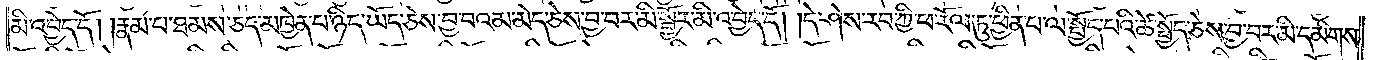མི་འབྱེད་དོ། །རྣམ་པ་ཐམས་ཅད་མཁྱེན་པ་ཉིད་ཡོད་ཅེས་བྱ་བའམ་མེད་ཅེས་བྱ་བར་མི་སྦྱོར་མི་འབྱེད་དོ། །དེ་ཤེས་རབ་ཀྱི་ཕ་རོལ་ཏུ་ཕྱིན་པ་ལ་སྤྱོད་པའི་ཚེ་སྤྱོད་ཅེས་བྱ་བར་མི་དམིགས་
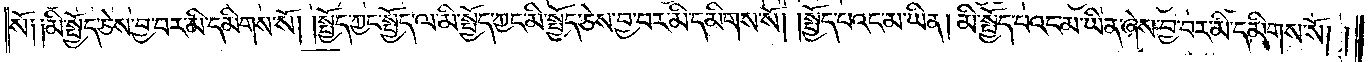སོ༑ ༑མི་སྤྱོད་ཅེས་བྱ་བར་མི་དམིགས་སོ། །སྤྱོད་ཀྱང་སྤྱོད་ལ་མི་སྤྱོད་ཀྱང་མི་སྤྱོད་ཅེས་བྱ་བར་མི་དམིགས་སོ། །སྤྱོད་པའང་མ་ཡིན། མི་སྤྱོད་པའང་མ་ཡིན་ཞེས་བྱ་བར་མི་དམིགས་སོ། །
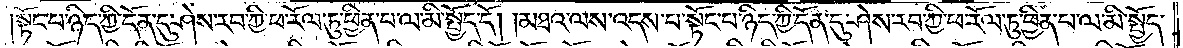སྟོང་པ་ཉིད་ཀྱི་དོན་དུ་ཤེས་རབ་ཀྱི་ཕ་རོལ་ཏུ་ཕྱིན་པ་ལ་མི་སྤྱོད་དོ། །མཐའ་ལས་འདས་པ་སྟོང་པ་ཉིད་ཀྱི་དོན་དུ་ཤེས་རབ་ཀྱི་ཕ་རོལ་ཏུ་ཕྱིན་པ་ལ་མི་སྤྱོད་
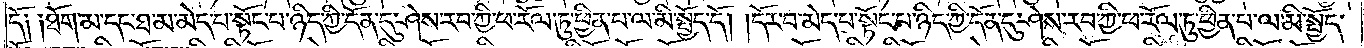དོ༑ ༑ཐོག་མ་དང་ཐ་མ་མེད་པ་སྟོང་པ་ཉིད་ཀྱི་དོན་དུ་ཤེས་རབ་ཀྱི་ཕ་རོལ་ཏུ་ཕྱིན་པ་ལ་མི་སྤྱོད་དོ། །དོར་བ་མེད་པ་སྟོང་པ་ཉིད་ཀྱི་དོན་དུ་ཤེས་རབ་ཀྱི་ཕ་རོལ་ཏུ་ཕྱིན་པ་ལ་མི་སྤྱོད་
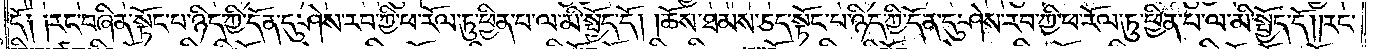དོ༑ ༑རང་བཞིན་སྟོང་པ་ཉིད་ཀྱི་དོན་དུ་ཤེས་རབ་ཀྱི་ཕ་རོལ་ཏུ་ཕྱིན་པ་ལ་མི་སྤྱོད་དོ། །ཆོས་ཐམས་ཅད་སྟོང་པ་ཉིད་ཀྱི་དོན་དུ་ཤེས་རབ་ཀྱི་ཕ་རོལ་ཏུ་ཕྱིན་པ་ལ་མི་སྤྱོད་དོ། །རང་
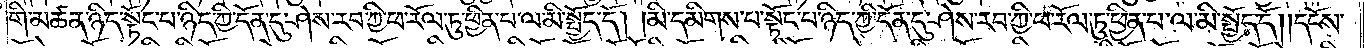གི་མཚན་ཉིད་སྟོང་པ་ཉིད་ཀྱི་དོན་དུ་ཤེས་རབ་ཀྱི་ཕ་རོལ་ཏུ་ཕྱིན་པ་ལ་མི་སྤྱོད་དོ། །མི་དམིགས་པ་སྟོང་པ་ཉིད་ཀྱི་དོན་དུ་ཤེས་རབ་ཀྱི་ཕ་རོལ་ཏུ་ཕྱིན་པ་ལ་མི་སྤྱོད་དོ། །དངོས་
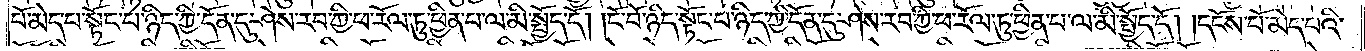པོ་མེད་པ་སྟོང་པ་ཉིད་ཀྱི་དོན་དུ་ཤེས་རབ་ཀྱི་ཕ་རོལ་ཏུ་ཕྱིན་པ་ལ་མི་སྤྱོད་དོ། །ངོ་བོ་ཉིད་སྟོང་པ་ཉིད་ཀྱི་དོན་དུ་ཤེས་རབ་ཀྱི་ཕ་རོལ་ཏུ་ཕྱིན་པ་ལ་མི་སྤྱོད་དོ། །དངོས་པོ་མེད་པའི་
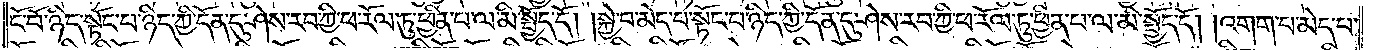ངོ་བོ་ཉིད་སྟོང་པ་ཉིད་ཀྱི་དོན་དུ་ཤེས་རབ་ཀྱི་ཕ་རོལ་ཏུ་ཕྱིན་པ་ལ་མི་སྤྱོད་དོ། །སྐྱེ་བ་མེད་པ་སྟོང་པ་ཉིད་ཀྱི་དོན་དུ་ཤེས་རབ་ཀྱི་ཕ་རོལ་ཏུ་ཕྱིན་པ་ལ་མི་སྤྱོད་དོ། །འགག་པ་མེད་པ་
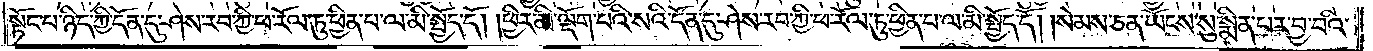སྟོང་པ་ཉིད་ཀྱི་དོན་དུ་ཤེས་རབ་ཀྱི་ཕ་རོལ་ཏུ་ཕྱིན་པ་ལ་མི་སྤྱོད་དོ། །ཕྱིར་མི་ལྡོག་པའི་སའི་དོན་དུ་ཤེས་རབ་ཀྱི་ཕ་རོལ་ཏུ་ཕྱིན་པ་ལ་མི་སྤྱོད་དོ། །སེམས་ཅན་ཡོངས་སུ་སྨིན་པར་བྱ་བའི་
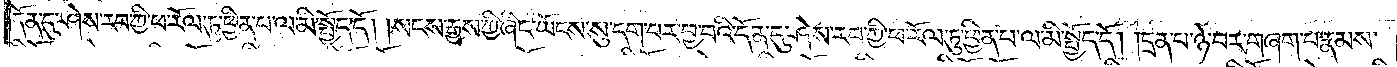དོན་དུ་ཤེས་རབ་ཀྱི་ཕ་རོལ་ཏུ་ཕྱིན་པ་ལ་མི་སྤྱོད་དོ། །སངས་རྒྱས་ཀྱི་ཞིང་ཡོངས་སུ་དག་པར་བྱ་བའི་དོན་དུ་ཤེས་རབ་ཀྱི་ཕ་རོལ་ཏུ་ཕྱིན་པ་ལ་མི་སྤྱོད་དོ། །དྲན་པ་ཉེ་བར་གཞག་པ་རྣམས་
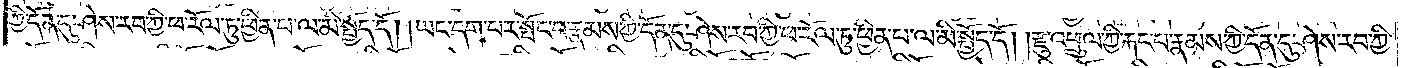ཀྱི་དོན་དུ་ཤེས་རབ་ཀྱི་ཕ་རོལ་ཏུ་ཕྱིན་པ་ལ་མི་སྤྱོད་དོ། །ཡང་དག་པར་སྤོང་བ་རྣམས་ཀྱི་དོན་དུ་ཤེས་རབ་ཀྱི་ཕ་རོལ་ཏུ་ཕྱིན་པ་ལ་མི་སྤྱོད་དོ། །རྫུ་འཕྲུལ་ཀྱི་རྐང་པ་རྣམས་ཀྱི་དོན་དུ་ཤེས་རབ་ཀྱི་
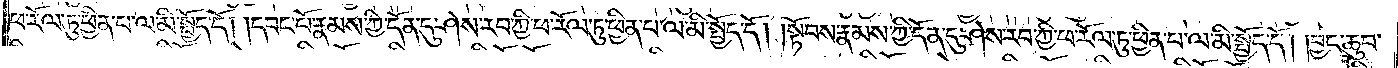ཕ་རོལ་ཏུ་ཕྱིན་པ་ལ་མི་སྤྱོད་དོ། །དབང་པོ་རྣམས་ཀྱི་དོན་དུ་ཤེས་རབ་ཀྱི་ཕ་རོལ་ཏུ་ཕྱིན་པ་ལ་མི་སྤྱོད་དོ། །སྟོབས་རྣམས་ཀྱི་དོན་དུ་ཤེས་རབ་ཀྱི་ཕ་རོལ་ཏུ་ཕྱིན་པ་ལ་མི་སྤྱོད་དོ། །བྱང་ཆུབ་
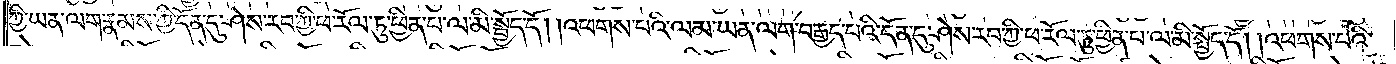ཀྱི་ཡན་ལག་རྣམས་ཀྱི་དོན་དུ་ཤེས་རབ་ཀྱི་ཕ་རོལ་ཏུ་ཕྱིན་པ་ལ་མི་སྤྱོད་དོ། །འཕགས་པའི་ལམ་ཡན་ལག་བརྒྱད་པའི་དོན་དུ་ཤེས་རབ་ཀྱི་ཕ་རོལ་ཏུ་ཕྱིན་པ་ལ་མི་སྤྱོད་དོ། །འཕགས་པའི་
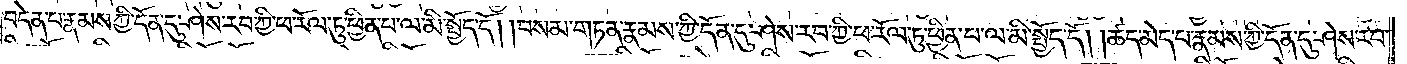བདེན་པ་རྣམས་ཀྱི་དོན་དུ་ཤེས་རབ་ཀྱི་ཕ་རོལ་ཏུ་ཕྱིན་པ་ལ་མི་སྤྱོད་དོ། །བསམ་གཏན་རྣམས་ཀྱི་དོན་དུ་ཤེས་རབ་ཀྱི་ཕ་རོལ་ཏུ་ཕྱིན་པ་ལ་མི་སྤྱོད་དོ། །ཚད་མེད་པ་རྣམས་ཀྱི་དོན་དུ་ཤེས་རབ་
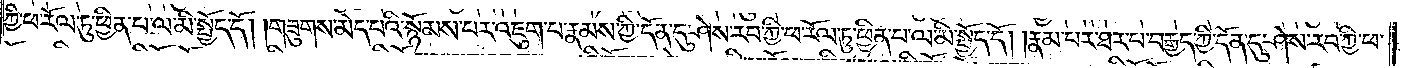ཀྱི་ཕ་རོལ་ཏུ་ཕྱིན་པ་ལ་མི་སྤྱོད་དོ། །གཟུགས་མེད་པའི་སྙོམས་པར་འཇུག་པ་རྣམས་ཀྱི་དོན་དུ་ཤེས་རབ་ཀྱི་ཕ་རོལ་ཏུ་ཕྱིན་པ་ལ་མི་སྤྱོད་དོ། །རྣམ་པར་ཐར་པ་བརྒྱད་ཀྱི་དོན་དུ་ཤེས་རབ་ཀྱི་ཕ་
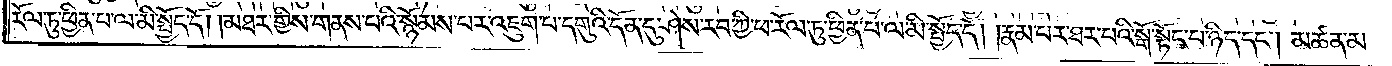རོལ་ཏུ་ཕྱིན་པ་ལ་མི་སྤྱོད་དོ། །མཐར་གྱིས་གནས་པའི་སྙོམས་པར་འཇུག་པ་དགུའི་དོན་དུ་ཤེས་རབ་ཀྱི་ཕ་རོལ་ཏུ་ཕྱིན་པ་ལ་མི་སྤྱོད་དོ། །རྣམ་པར་ཐར་པའི་སྒོ་སྟོང་པ་ཉིད་དང༌། མཚན་མ་
